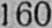160
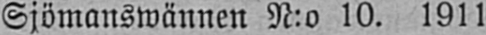Sjömanswännen N:o 10. 1911
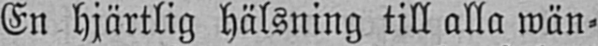En hjärtlig hälsning till alla wän-
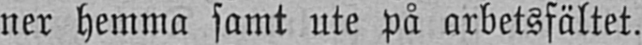ner hemma samt ute på arbetsfältet.
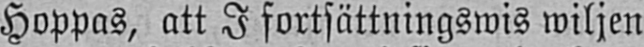Hoppas, att I fortsättningswis wiljen
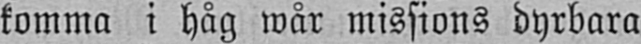komma i håg wår missions dyrbara
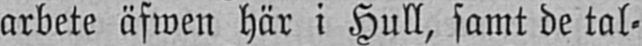arbete äfwen här i Hull, samt de tal-
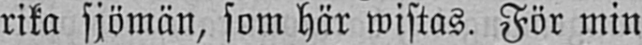rika sjömän, som här wistas. För min
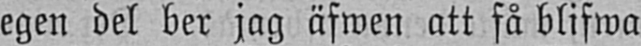egen del ber jag äfwen att få blifwa
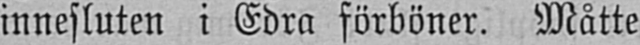innesluten i Edra förböner. Måtte
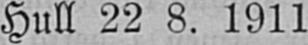Hull 22 8. 1911
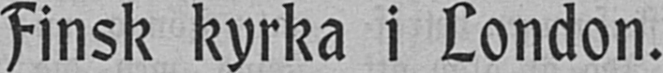Finsk kyrka i London.
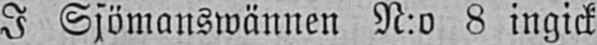I Sjömanswännen N:o 8 ingick
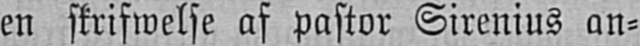en skrifwelse af pastor Sirenius an-
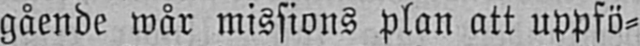gående wår missions plan att uppfö-
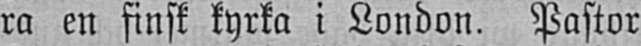ra en finsk kyrka i London. Pastor
